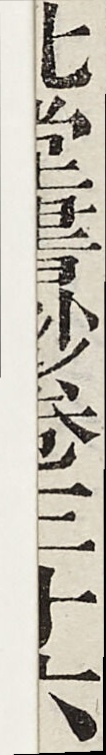北堂書鈔卷第三十六
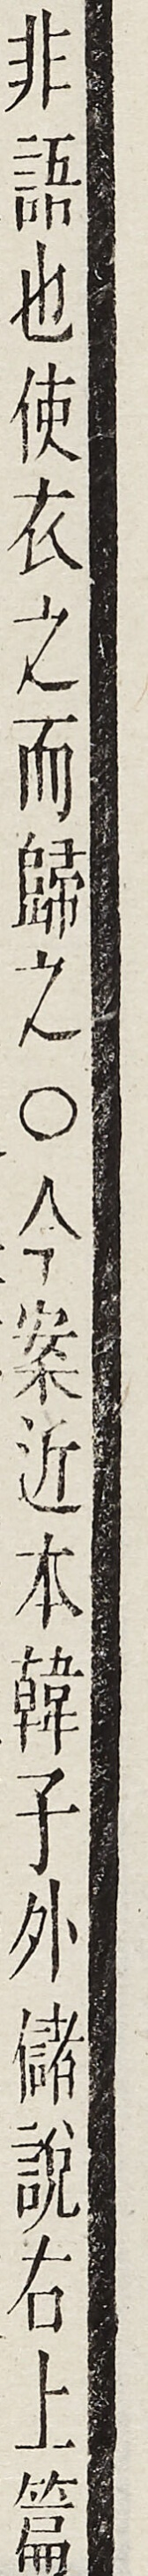非語也使衣之而歸之○今案近本韓子外儲說右上篇
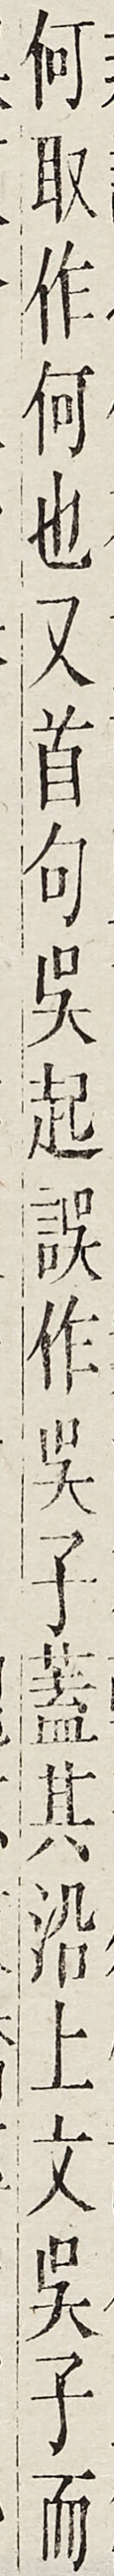何取作何也又首句吳起誤作吳子蓋其沿上文吳子而
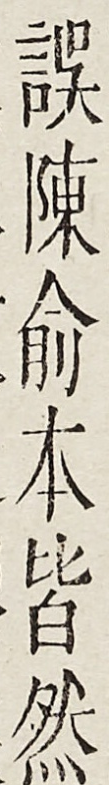誤陳俞本皆然
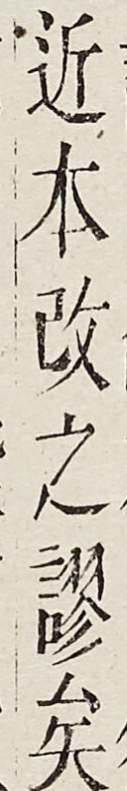近本改之謬矣
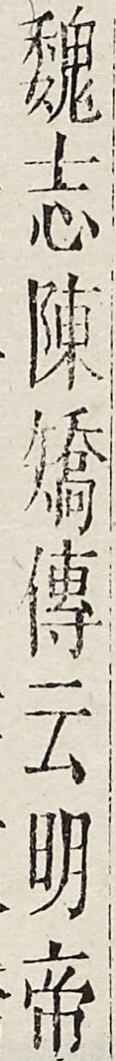魏志陳矯傳云明帝
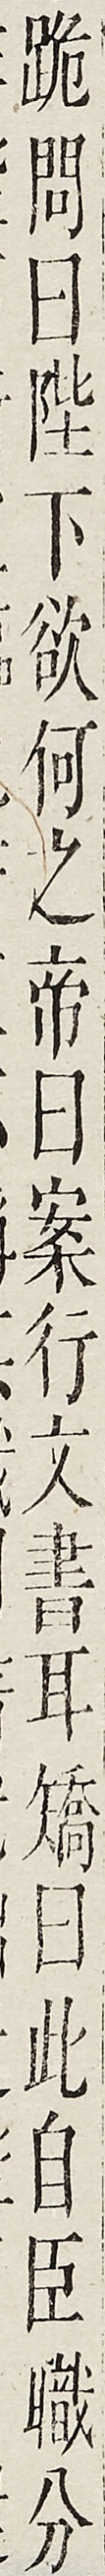跪問曰陛下欲何之帝曰案行文書耳矯曰此自臣職分
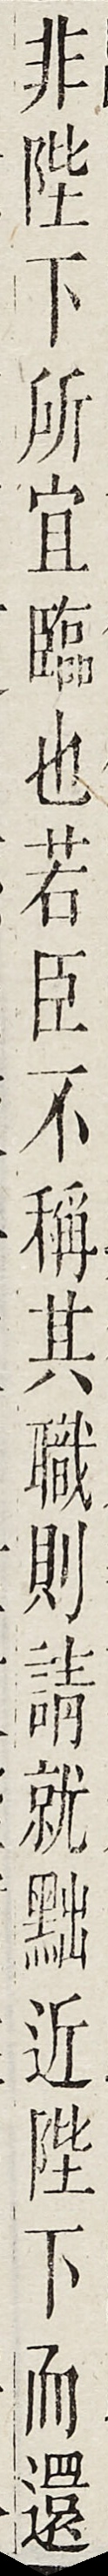非陛下所宜臨也若臣不稱其職則請就黜近陛下而還
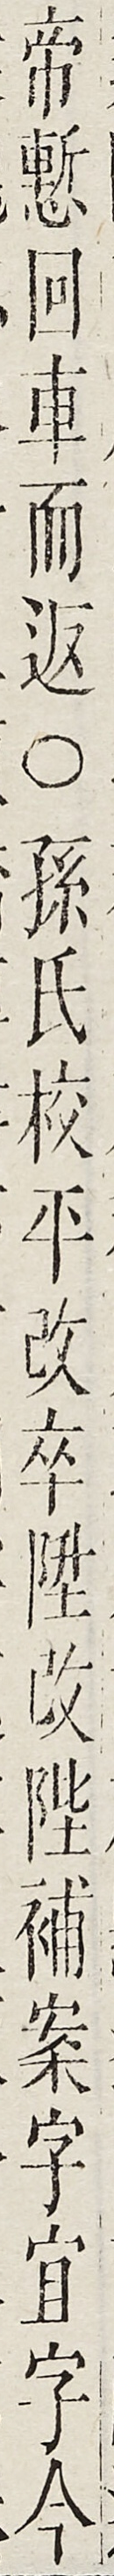帝慚回車而返○孫氏校平改卒升改陛補案字宜字今
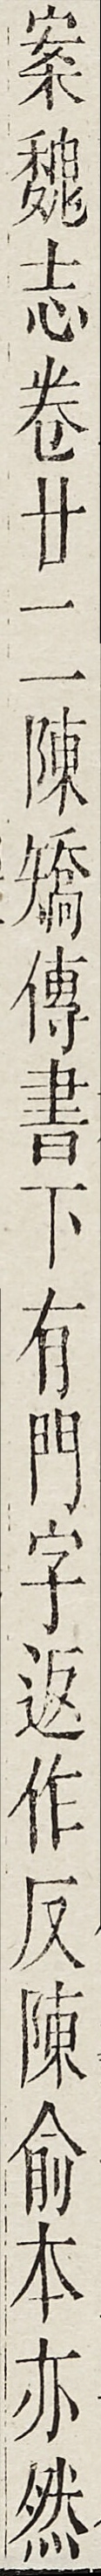案魏志卷廿二陳矯傳書下有門字返作反陳俞本亦然
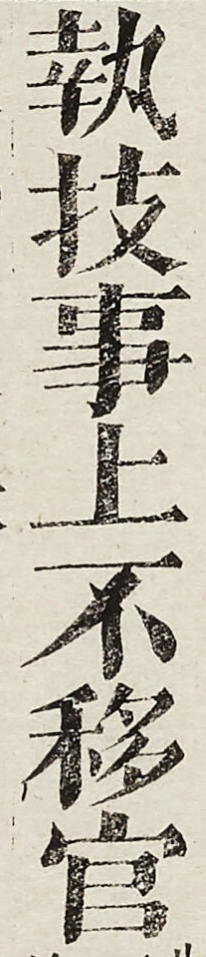執技事上不移官
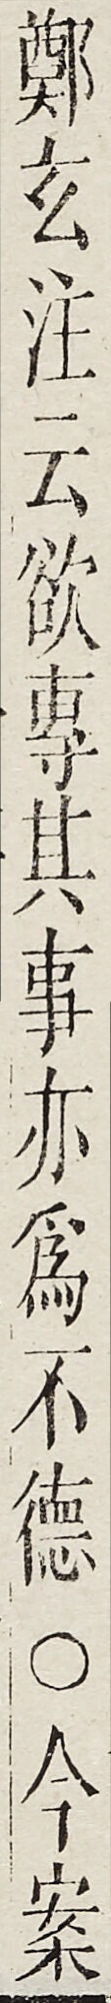鄭玄注云欲專其事亦為不德○今案
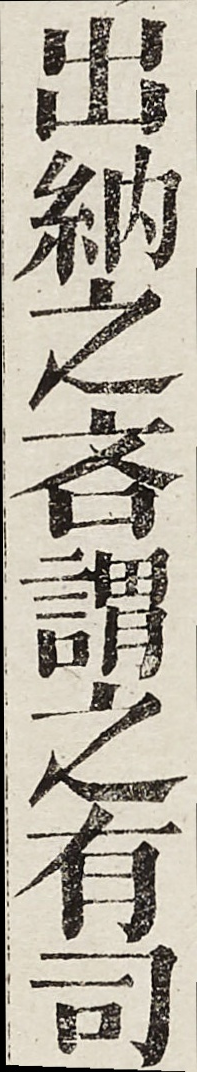出納之吝謂之有司
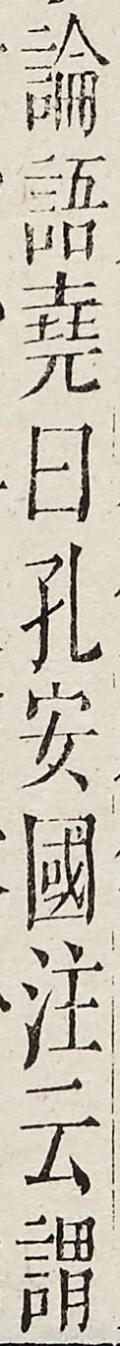論語堯曰孔安國注云謂
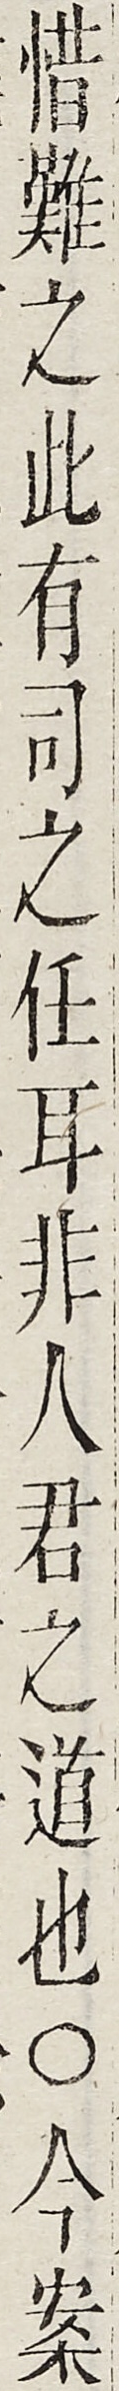惜難之此有司之任耳非人君之道也○今案
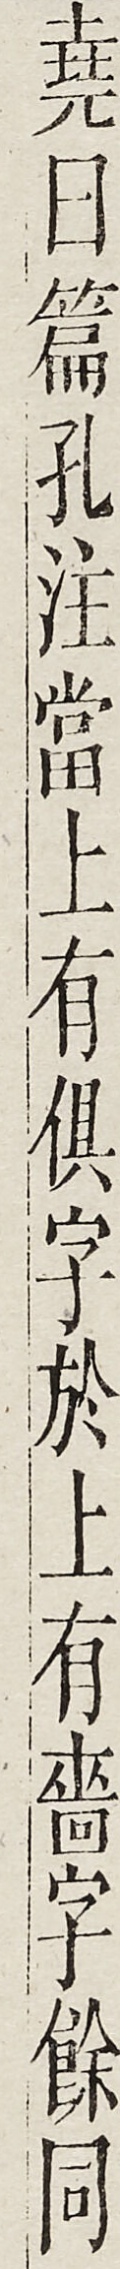堯曰篇孔注當上有俱字於上有嗇字餘同
